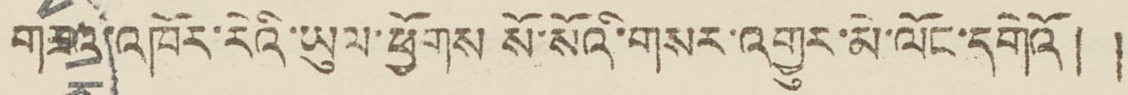གཟའ་འཁོར་རེའི་ཡུལ་ཕྱོགས སོ་སོའི་གསར་འགྱུར་མེ་ལོང་དགེའོ། །
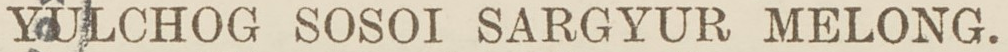YULCHOG SOSOI SARGYUR MELONG.
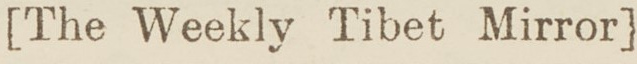[The Weekly Tibet Mirror]
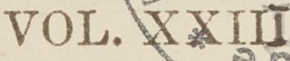VOL. XXIII
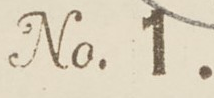No. 1
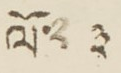ལོ་༢ ༣
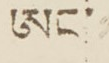ཨང་
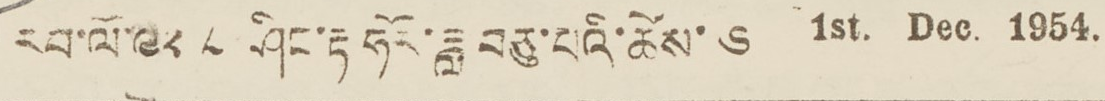རབ་ལོ་༩༢ ༨ ཤིང་རྟ ཧོར་ཟླ བཅུ་པའི་ཚེས་ ༦ 1st. Dec. 1954
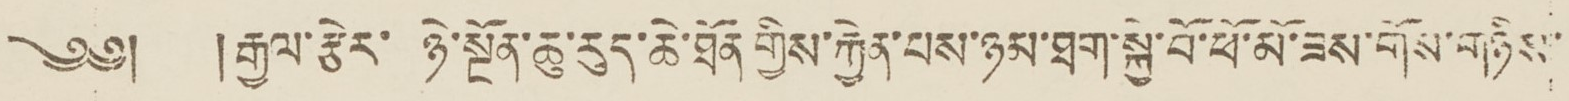༄༅། །རྒྱལ་རྩེར་ ཉེ་སྔོན་ཆུ་རུད་ཆེ་ཐོན་གྱིས་རྐྱེན་པས་ཉམ་ཐག་སྐྱེ་བོ་ཕོ་མོ་ཟས་གོས་གཉིས་
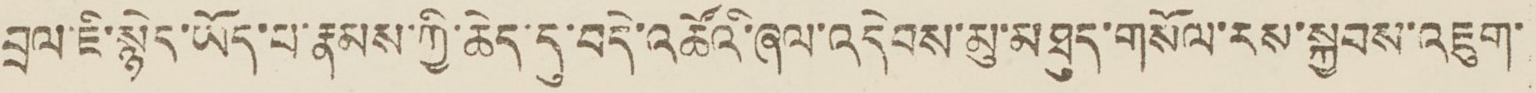བྲལ་ཇི་སྙེད་ཡོད་པ་རྣམས་ཀྱི་ཆེད་དུ་བདེ་འཚོའི་ཞལ་འདེབས་མུ་མཐུད་གསོལ་རས་སྐྱབས་འཇུག་
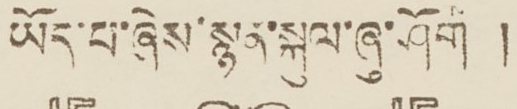ཡོད་པ་ཞེས་སྙན་སྐལ་ཞུ་ཤོག །
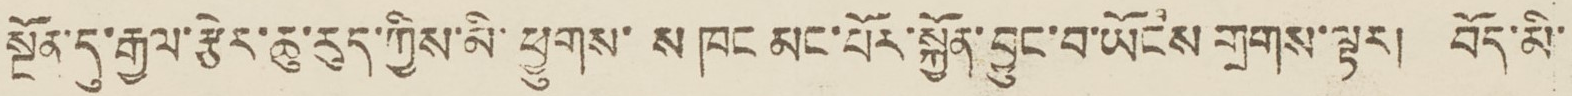སྔོན་དུ་རྒྱལ་རྩེར་ཆུ་རུད་ཀྱིས་མི་ཕྱུགས་ ས ཁང མང་པོར་སྐྱོན་བྱུང་བ་ཡོངས གྲགས་ལྟར། བོད་མི་
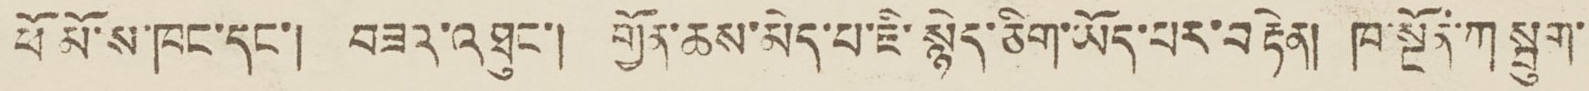ཕོ་མོ་ས་ཁང་དང་། བཟའ་འཐུང་། གྱོན་ཆས་མེད་པ་ཇི་སྙེད་ཅིག་ཡོད་པར་བརྟེན། ཁ་སྔོན་ཀ སྦུག་
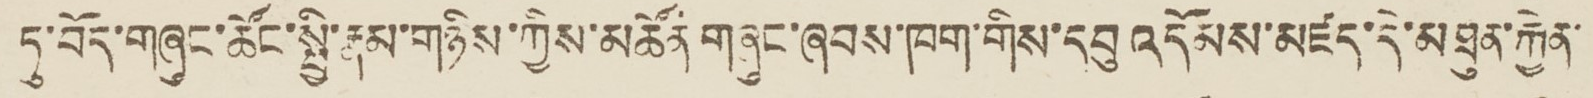ཏུ་བོད་གཞུང་ཚོང་སྤྱི་རྣམ་གཉིས་ཀྱིས་མཚོན་གཞུང་ཞབས་ཁག་གིས་དབུ་འདོམས་མཛད་དེ་མཐུན་རྐྱེན་
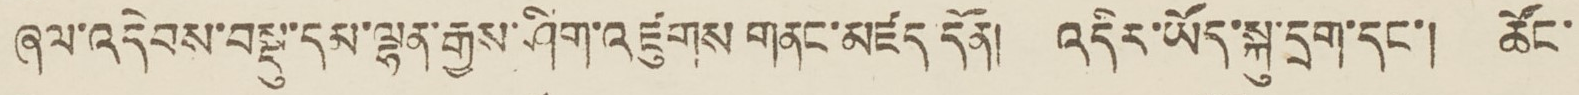ཞལ་འདེབས་བསྡུ་དམ་ལྷན་རྒྱས་ཤིག་འཛུགས གནང་མཛད དོན། འདིར་ཡོད་སྐུ་དྲག་དང་། ཚོང་
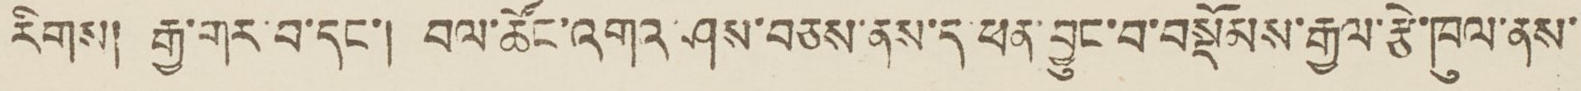རིགས། རྒྱ་གར་བ་དང་། བལ་ཚོང་འགའ་ཤས་བཅས་ནས་ད་ཕན་བྱུང་བ་བསྡོམས་རྒྱལ་རྩེ་ཁུལ་ནས་
